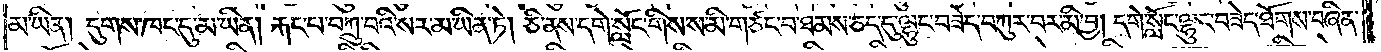མ་ཡིན། དུགས་ཁང་དུ་མ་ཡིན། རྐང་པ་བཀྲུ་བའི་སར་མ་ཡིན་ཏེ། ཅི་ནས་དགེ་སློང་གིས་ས་མི་གཙང་པ་ཐམས་ཅད་དུ་ལྷུང་བཟེད་བཀུར་བར་མི་བྱ། དགེ་སློང་ལྷུང་བཟེད་ཐོགས་བཞིན་
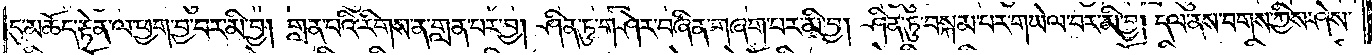དུ་མཆོད་རྟེན་ལ་ཕྱག་བྱ་བར་མི་བྱ། གླན་པའི་རིགས་ན་གླན་པར་བྱ། ཤིན་ཏུ་གཤེར་བཞིན་གཞག་པར་མི་བྱ། ཤིན་ཏུ་བསྐམ་པར་གཡེལ་བར་མི་བྱ། དལ་ནས་བགས་ཀྱིས་ཤེས་
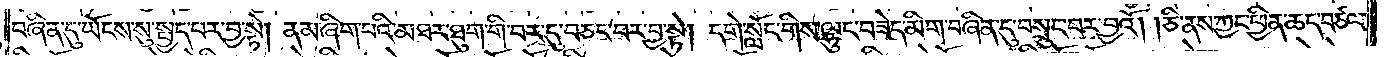བཞིན་དུ་ཡོངས་སུ་སྤྱད་པར་བྱ་སྟེ། ནམ་ཞིག་པའི་མཐར་ཐུག་གི་བར་དུ་བཅང་བར་བྱ་སྟེ། དགེ་སློང་གིས་ལྷུང་བཟེད་མིག་བཞིན་དུ་བསྲུང་བར་བྱའོ། །ཅི་ནས་ཀྱང་ཕྱིན་ཆད་བཙལ་
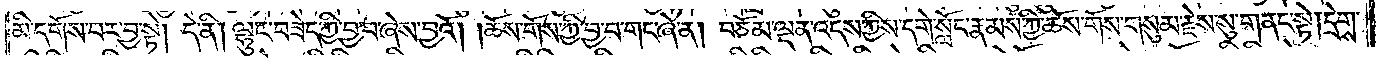མི་དགོས་པར་བྱ་སྟེ། དེ་ནི། ལྷུང་བཟེད་ཀྱི་བྱ་བ་ཞེས་བྱའོ། །ཆོས་གོས་ཀྱི་བྱ་བ་གང་ཞེ་ན། བཅོམ་ལྡན་འདས་ཀྱིས་དགེ་སློང་རྣམས་ཀྱི་ཆོས་གོས་གསུམ་རྗེས་སུ་གནང་སྟེ། དྲེགས་
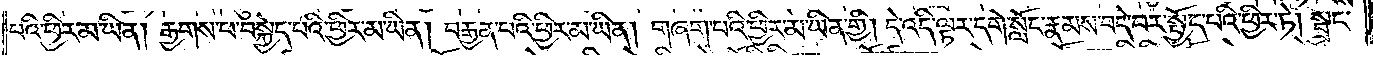པའི་ཕྱིར་མ་ཡིན། རྒྱགས་པ་བསྐྱེད་པའི་ཕྱིར་མ་ཡིན། བརྒྱན་པའི་ཕྱིར་མ་ཡིན། གཞག་པའི་ཕྱིར་མ་ཡིན་གྱི། དེ་འདི་ལྟར་དགེ་སློང་རྣམས་བདེ་བར་སྤྱོད་པའི་ཕྱིར་ཏེ། སྦྲང་
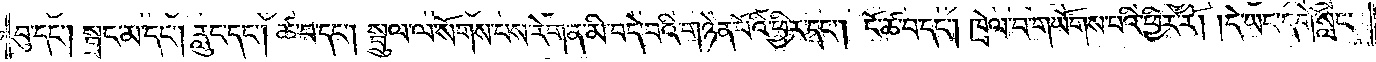བུ་དང༌། སྦྲང་མ་དང༌། རླུང་དང༌། ཚ་བ་དང༌། སྦྲུལ་ལ་སོགས་པས་རེག་ན་མི་བདེ་བའི་གཉེན་པོའི་ཕྱིར་དང༌། ངོ་ཚ་བ་དང༌། ཁྲེལ་བ་གཡོགས་པའི་ཕྱིར་རོ། །དེ་ཡང་དགེ་སློང་
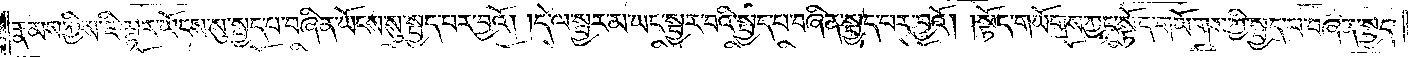རྣམས་ཀྱིས་ཇི་ལྟར་ཡོངས་སུ་སྤྱད་པ་བཞིན་ཡོངས་སུ་སྤྱད་པར་བྱའོ། །དེ་ལ་སྦྱར་མ་ཡང་སྦྱར་བའི་སྤྱད་པ་བཞིན་སྤྱད་པར་བྱའོ། །སྟོད་གཡོགས་ཀྱང་སྟོད་གཡོགས་ཀྱི་སྤྱད་པ་བཞིན་སྤྱད་
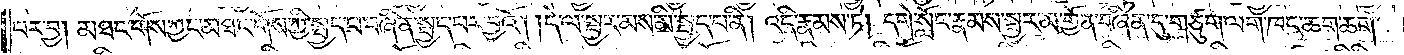པར་བྱ། མཐང་གོས་ཀྱང་མཐང་གོས་ཀྱི་སྤྱད་པ་བཞིན་སྤྱད་པར་བྱའོ། །དེ་ལ་སྦྱར་མས་མི་སྤྱད་པ་ནི། འདི་རྣམས་ཏེ། དགེ་སློང་རྣམས་སྦྱར་མ་གྱོན་བཞིན་དུ་གཙུག་ལག་ཁང་ཆག་ཆག་
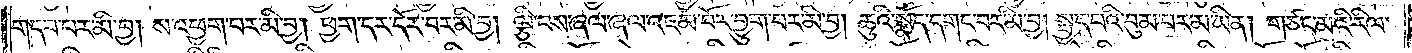གདབ་པར་མི་བྱ། ས་འཕྱག་པར་མི་བྱ། ཕྱག་དར་དོར་བར་མི་བྱ། ལྕི་བས་ཞལ་ཞལ་འཇམ་པོར་བྱུག་པར་མི་བྱ། ཆུའི་སྣོད་དགང་བར་མི་བྱ། སྤྱད་པའི་བུམ་པར་མ་ཡིན། གཙང་བའི་རིལ་
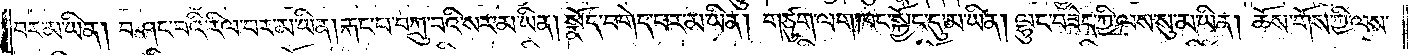བར་མ་ཡིན། བཤང་བའི་རིལ་བར་མ་ཡིན། རྐང་པ་བཀྲུ་བའི་སར་མ་ཡིན། སྣོད་བགེད་པར་མ་ཡིན། གཙུག་ལག་ཁང་སྐྱོང་དུ་མ་ཡིན། ལྷུང་བཟེད་ཀྱི་ལས་སུ་མ་ཡིན། ཆོས་གོས་ཀྱི་ལས་
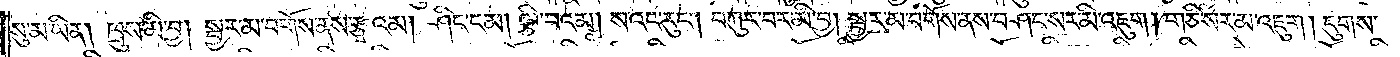སུ་མ་ཡིན། ཁྲུས་མི་བྱ། སྦྱར་མ་བགོས་ནས་རྩྭའམ། ཤིང་ངམ། ལྕི་བའམ། སའང་རུང༌། བཀུར་བར་མི་བྱ། སྦྱར་མ་བགོས་ནས་བཤང་སར་མི་འཇུག །གཅི་སར་མ་འཇུག །དུགས་
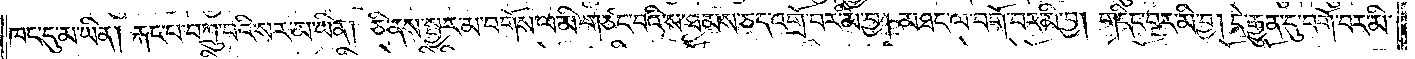ཁང་དུ་མ་ཡིན། རྐང་པ་བཀྲུ་བའི་སར་མ་ཡིན། ཅི་ནས་སྦྱར་མ་བགོས་ལ་མི་གཙང་བའི་ས་ཐམས་ཅད་འགྲོ་བར་མི་བྱ། མཐང་ལ་བགོ་བར་མི་བྱ། གདིང་བར་མི་བྱ། དེ་རྒྱུན་དུ་བགོ་བར་མི་
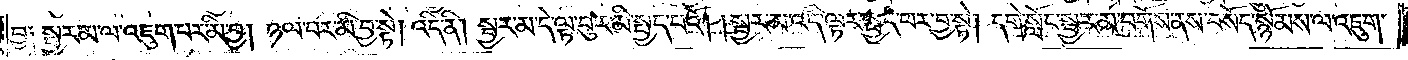བྱ༑ སྦྱར་མ་ལ་འཇུག་པར་མི་བྱ། ཉལ་བར་མི་བྱ་སྟེ། འདི་ནི། སྦྱར་མ་དེ་ལྟ་བུར་མི་སྤྱད་པའོ། །སྦྱར་མ་འདི་ལྟར་སྤྱད་པར་བྱ་སྟེ། དགེ་སློང་སྦྱར་མ་བགོས་ནས་བསོད་སྙོམས་ལ་འཇུག་
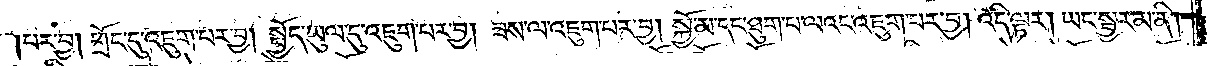པར་བྱ། གྲོང་དུ་འཇུག་པར་བྱ། སྤྱོད་ཡུལ་དུ་འཇུག་པར་བྱ། ཟས་ལ་འཇུག་པར་བྱ། སྐྱོ་མ་དང་ཐུག་པ་ལའང་འཇུག་པར་བྱ། འདི་ལྟར། ཡང་སྦྱར་མ་ནི།
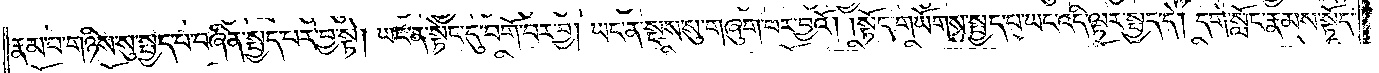རྣམ་པ་གཉིས་སུ་སྤྱད་པ་བཞིན་སྤྱད་པར་བྱ་སྟེ། ཡང་ན་སྟེང་དུ་བགོ་བར་བྱ། ཡང་ན་སྔས་སུ་གཞུག་པར་བྱའོ། །སྟོད་གཡོགས་སྤྱད་པ་ཡང་འདི་ལྟར་སྤྱད་དེ། དགེ་སློང་རྣམས་སྟོད་
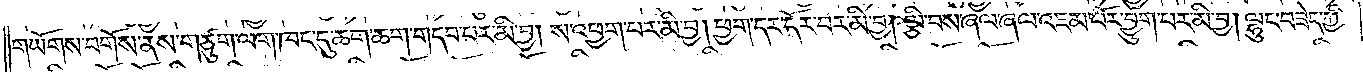གཡོགས་བགོས་ནས་གཙུག་ལག་ཁང་དུ་ཆག་ཆག་གདབ་པར་མི་བྱ། ས་འཕྱག་པར་མི་བྱ། ཕྱག་དར་དོར་བར་མི་བྱ། ལྕི་བས་ཞལ་ཞལ་འཇམ་པོར་བྱུག་པར་མི་བྱ། ལྷུང་བཟེད་ཀྱི་
